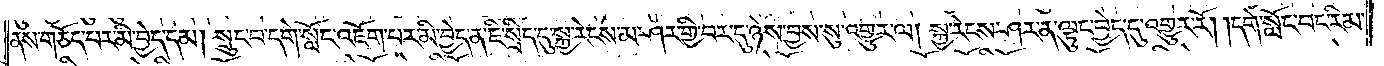ནས་གཅོད་པར་མི་བྱེད་དམ། སྲུང་བ་དགེ་སློང་འཇོག་པར་མི་བྱེད་ན་ཇི་སྲིད་དུ་སྐྱ་རེངས་མ་ཤར་གྱི་བར་དུ་ཉེས་བྱས་སུ་འགྱུར་ལ། སྐྱ་རེངས་ཤར་ན་ལྟུང་བྱེད་དུ་འགྱུར་རོ། །དགེ་སློང་བང་རིམ་
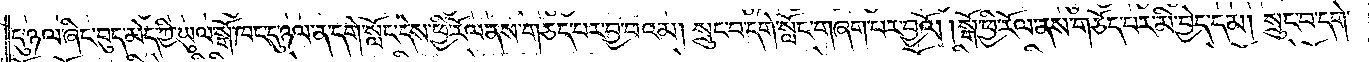དུ་ཉལ་ཞིང་བུད་མེད་ཀྱི་ཡུལ་སྒོ་ཁང་དུ་ཉལ་ན་དགེ་སློང་དེས་ཕྱི་རོལ་ནས་གཅད་པར་བྱ་བའམ། སྲུང་བ་དགེ་སློང་གཞག་པར་བྱའོ། །སྒོ་ཕྱི་རོལ་ནས་གཅོད་པར་མི་བྱེད་དམ། སྲུང་བ་དགེ་
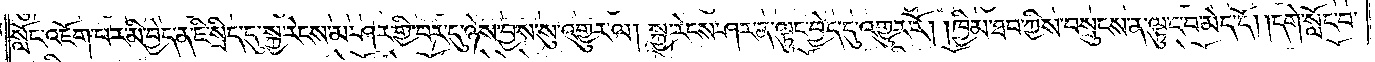སློང་འཇོག་པར་མི་བྱེད་ན་ཇི་སྲིད་དུ་སྐྱ་རེངས་མ་ཤར་གྱི་བར་དུ་ཉེས་བྱས་སུ་འགྱུར་ལ། སྐྱ་རེངས་ཤར་ན་ལྟུང་བྱེད་དུ་འགྱུར་རོ། །ཁྱིམ་ཐབ་ཀྱིས་བསྲུངས་ན་ལྟུང་བ་མེད་དོ། །དགེ་སློང་བ་
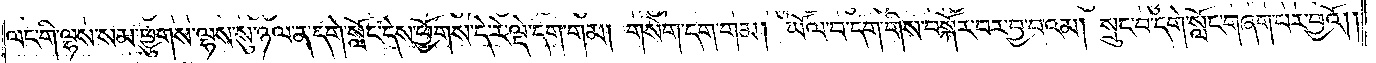ལང་གི་ལྷས་སམ་ཕྱུགས་ལྷས་སུ་ཉལ་ན་དགེ་སློང་དེས་ཕྱོགས་དེ་རེ་ལྡེ་དག་གམ། གསེག་དག་གམ། ཡོལ་བ་དག་གིས་བསྐོར་བར་བྱ་བའམ། སྲུང་བ་དགེ་སློང་གཞག་པར་བྱའོ། །
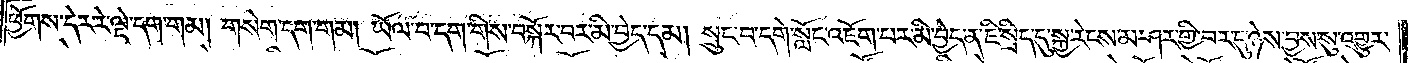ཕྱོགས་དེར་རེ་ལྡེ་དག་གམ། གསེག་དག་གམ། ཡོལ་བ་དག་གིས་བསྐོར་བར་མི་བྱེད་དམ། སྲུང་བ་དགེ་སློང་འཇོག་པར་མི་བྱེད་ན་ཇི་སྲིད་དུ་སྐྱ་རེངས་མ་ཤར་གྱི་བར་དུ་ཉེས་བྱས་སུ་འགྱུར་
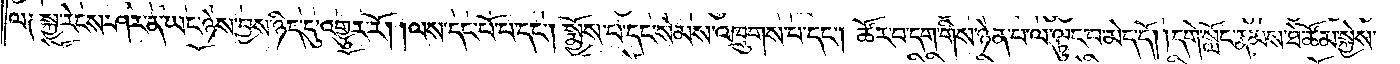ལ༑ སྐྱ་རེངས་ཤར་ན་ཡང་ཉེས་བྱས་ཉིད་དུ་འགྱུར་རོ། །ལས་དང་པོ་པ་དང༌། སྨྱོས་པ་དང་སེམས་འཁྲུགས་པ་དང༌། ཚོར་བ་དག་གིས་ཉེན་པ་ལ་ལྟུང་བ་མེད་དོ། །དགེ་སློང་རྣམས་ཐེ་ཚོམ་སྐྱེས་
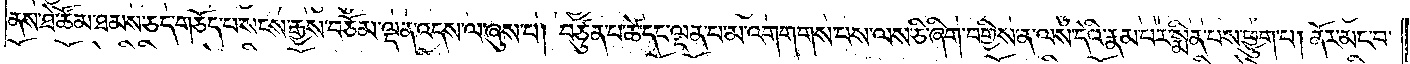ནས་ཐེ་ཚོམ་ཐམས་ཅད་གཅོད་པ་སངས་རྒྱས་བཅོམ་ལྡན་འདས་ལ་ཞུས་པ། བཙུན་པ་ཚེ་དང་ལྡན་པ་མ་འགགས་པས་ལས་ཅི་ཞིག་བགྱིས་ན་ལས་དེའི་རྣམ་པར་སྨིན་པས་ཕྱུག་པ། ནོར་མང་བ་
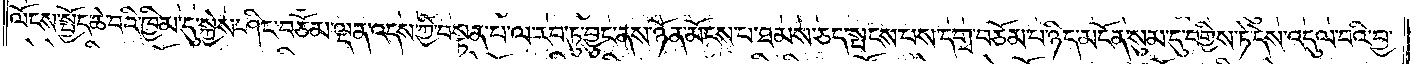ལོངས་སྤྱོད་ཆེ་བའི་ཁྱིམ་དུ་སྐྱེས་ཤིང་བཅོམ་ལྡན་འདས་ཀྱི་བསྟན་པ་ལ་རབ་ཏུ་བྱུང་ནས་ཉོན་མོངས་པ་ཐམས་ཅད་སྤངས་པས་དགྲ་བཅོམ་པ་ཉིད་མངོན་སུམ་དུ་བགྱིས་ཏེ་དེས་འདུལ་བའི་བྱ་
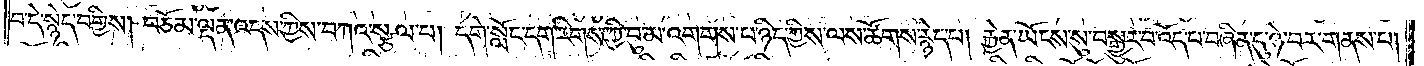བ་དེ་སྙེད་བགྱིས། བཅོམ་ལྡན་འདས་ཀྱིས་བཀའ་སྩལ་པ། དགེ་སློང་དག་རིགས་ཀྱི་བུ་མ་འགགས་པ་ཉིད་ཀྱིས་ལས་ཚོགས་རྙེད་པ། རྐྱེན་ཡོངས་སུ་བསྒྱུར་བ་འོད་པ་བཞིན་དུ་ཉེ་བར་གནས་པ།
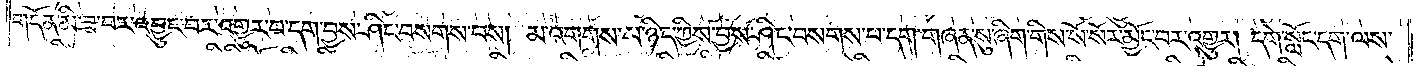གདོན་མི་ཟ་བར་འབྱུང་བར་འགྱུར་བ་དག་བྱས་ཤིང་བསགས་པས། མ་འགགས་པ་ཉིད་ཀྱིས་བྱས་ཤིང་བསགས་པ་དག་གཞན་སུ་ཞིག་གིས་སོ་སོར་མྱོང་བར་འགྱུར། དགེ་སློང་དག་ལས་
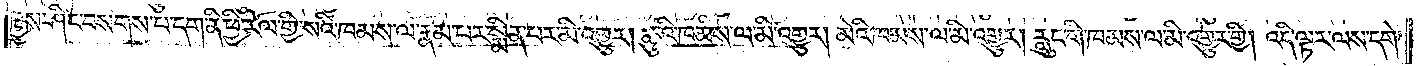བྱས་ཤིང་བསགས་པ་དག་ནི་ཕྱི་རོལ་གྱི་སའི་ཁམས་ལ་རྣམ་པར་སྨིན་པར་མི་འགྱུར། ཆུའི་ཁམས་ལ་མི་འགྱུར། མེའི་ཁམས་ལ་མི་འགྱུར། རླུང་གི་ཁམས་ལ་མི་འགྱུར་གྱི། འདི་ལྟར་ལས་དགེ་
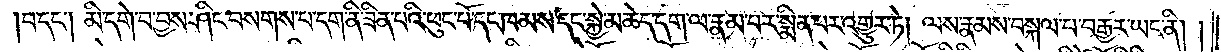བ་དང༌། མི་དགེ་བ་བྱས་ཤིང་བསགས་པ་དག་ནི་ཟིན་པའི་ཕུང་པོ་དང་ཁམས་དང་སྐྱེ་མཆེད་དག་ལ་རྣམ་པར་སྨིན་པར་འགྱུར་ཏེ། ལས་རྣམས་བསྐལ་པ་བརྒྱར་ཡང་ནི། །
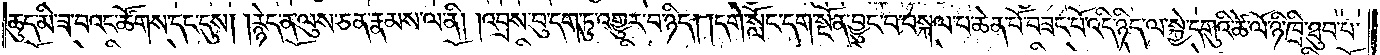ཆུད་མི་ཟ་བའང་ཚོགས་དང་དུས། །རྙེད་ན་ལུས་ཅན་རྣམས་ལ་ནི། །འབྲས་བུ་དག་ཏུ་འགྱུར་བ་ཉིད། །དགེ་སློང་དག་སྔོན་བྱུང་བ་བསྐལ་པ་ཆེན་པོ་བཟང་པོ་འདི་ཉིད་ལ་སྐྱེ་དགུའི་ཚེ་ལོ་ཉི་ཁྲི་ཐུབ་པ་
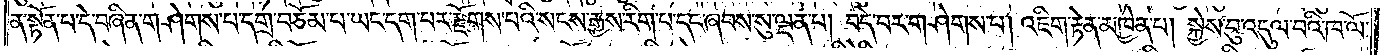ན་སྟོན་པ་དེ་བཞིན་གཤེགས་པ་དགྲ་བཅོམ་པ་ཡང་དག་པར་རྫོགས་པའི་སངས་རྒྱས་རིག་པ་དང་ཞབས་སུ་ལྡན་པ། བདེ་བར་གཤེགས་པ། འཇིག་རྟེན་མཁྱེན་པ། སྐྱེས་བུ་འདུལ་བའི་ཁ་ལོ་
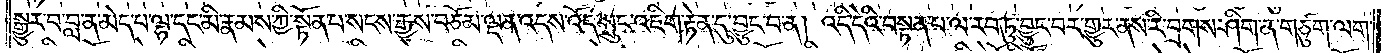སྒྱུར་བ་བླ་ན་མེད་པ་ལྷ་དང་མི་རྣམས་ཀྱི་སྟོན་པ་སངས་རྒྱས་བཅོམ་ལྡན་འདས་འོད་སྲུང་འཇིག་རྟེན་དུ་བྱུང་བ་ན། འདི་དེའི་བསྟན་པ་ལ་རབ་ཏུ་བྱུང་བར་གྱུར་ནས་རི་བྲགས་ཤིག་ན་གཙུག་ལག་
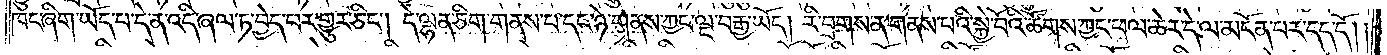ཁང་ཞིག་ཡོད་པ་དེ་ན་འདི་ཞལ་ཏ་བྱེད་པར་གྱུར་ཅིང༌། དེ་ལྷན་ཅིག་གནས་པ་དང་ཉེ་གནས་ཀྱང་ལྔ་བརྒྱ་ཡོད། རི་བྲགས་ན་གནས་པའི་སྐྱེ་བོའི་ཚོགས་ཀྱང་ཕལ་ཆེར་དེ་ལ་མངོན་པར་དད་དོ། །
